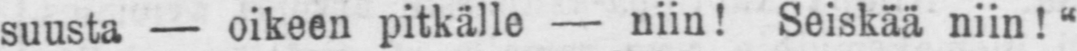suusta — oikeen pitkälle — niin! Seiskää niin!"
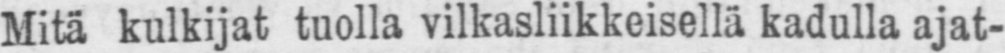Mitä kulkijat tuolla vilkasliikkeisellä kadulla ajat-
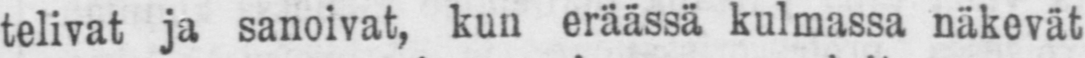telivat ja sanoivat, kun eräässä kulmassa näkevät
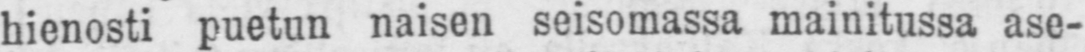hienosti puetun naisen seisomassa mainitussa ase-
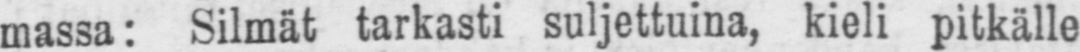massa: Silmät tarkasti suljettuina, kieli pitkälle
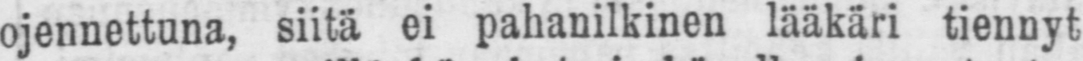ojennettuna, siitä ei pahanilkinen lääkäri tiennyt
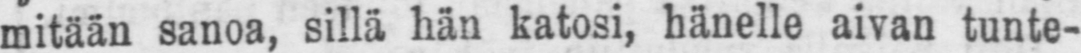mitään sanoa, sillä kän katosi, hänells aivan tunte-
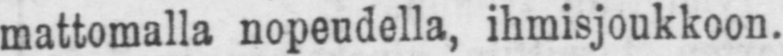mattomalla nopeudella, ihmisjoukkoon.
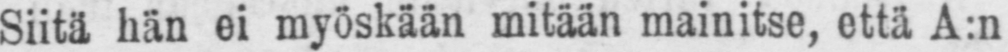Siitä hän ei myöskään mitään mainitse, että A:n
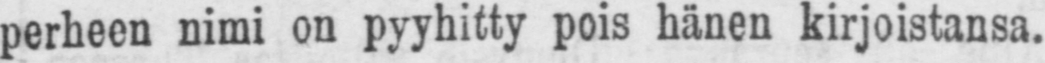perheen nimi on pyyhitty pois hänen kirjoistansa.
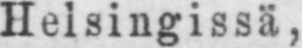Helsingissä,
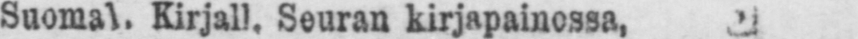Suomal. Kirjall. Seuran Kirjapainossa,
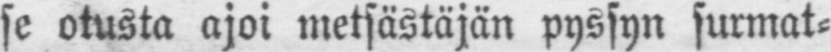se otusta ajoi metsästäjän pyssyn surmat-
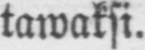tawaksi.
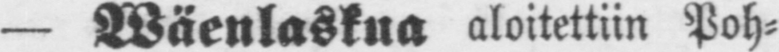— Wäenlaskua aloitettiin Poh-
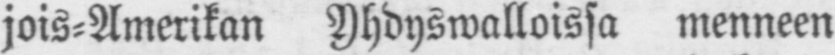jois-Amerikan Yhdyswalloissa menneen
